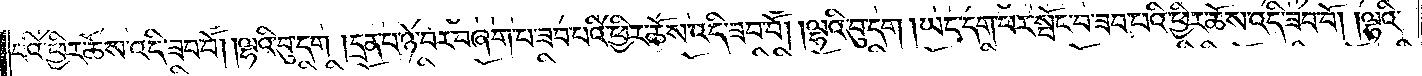པའི་ཕྱིར་ཆོས་འདི་ཟབ་བོ། །ལྷའི་བུ་དག །དྲན་པ་ཉེ་བར་བཞག་པ་ཟབ་པའི་ཕྱིར་ཆོས་འདི་ཟབ་བོ། །ལྷའི་བུ་དག །ཡང་དག་པར་སྤོང་བ་ཟབ་པའི་ཕྱིར་ཆོས་འདི་ཟབ་བོ། །ལྷའི་
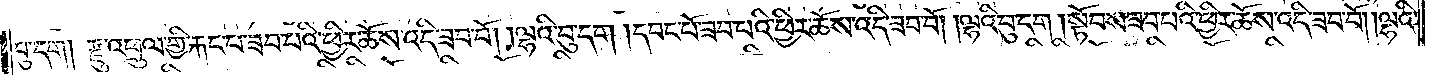བུ་དག །རྫུ་འཕྲུལ་གྱི་རྐང་པ་ཟབ་པའི་ཕྱིར་ཆོས་འདི་ཟབ་བོ། །ལྷའི་བུ་དག །དབང་པོ་ཟབ་པའི་ཕྱིར་ཆོས་འདི་ཟབ་བོ། །ལྷའི་བུ་དག །སྟོབས་ཟབ་པའི་ཕྱིར་ཆོས་འདི་ཟབ་བོ། །ལྷའི་
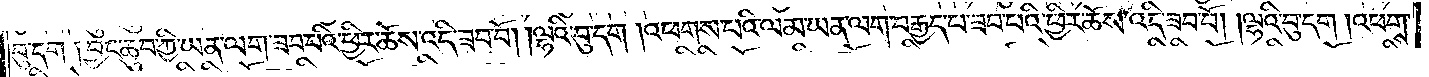བུ་དག །བྱང་ཆུབ་ཀྱི་ཡན་ལག་ཟབ་པའི་ཕྱིར་ཆོས་འདི་ཟབ་བོ། །ལྷའི་བུ་དག །འཕགས་པའི་ལམ་ཡན་ལག་བརྒྱད་པ་ཟབ་པའི་ཕྱིར་ཆོས་འདི་ཟབ་བོ། །ལྷའི་བུ་དག །འཕགས་
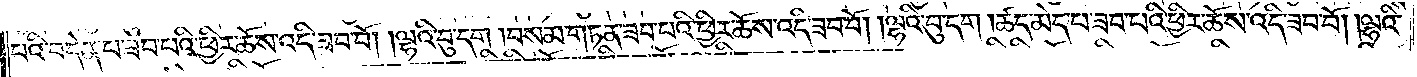པའི་བདེན་པ་ཟབ་པའི་ཕྱིར་ཆོས་འདི་ཟབ་བོ། །ལྷའི་བུ་དག །བསམ་གཏན་ཟབ་པའི་ཕྱིར་ཆོས་འདི་ཟབ་བོ། །ལྷའི་བུ་དག །ཚད་མེད་པ་ཟབ་པའི་ཕྱིར་ཆོས་འདི་ཟབ་བོ། །ལྷའི་
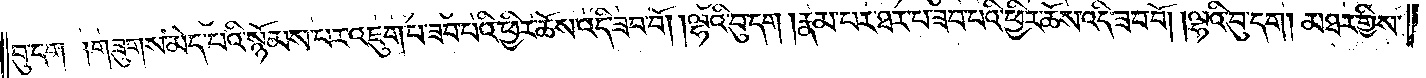བུ་དག །གཟུགས་མེད་པའི་སྙོམས་པར་འཇུག་པ་ཟབ་པའི་ཕྱིར་ཆོས་འདི་ཟབ་བོ། །ལྷའི་བུ་དག །རྣམ་པར་ཐར་པ་ཟབ་པའི་ཕྱིར་ཆོས་འདི་ཟབ་བོ། །ལྷའི་བུ་དག །མཐར་གྱིས་
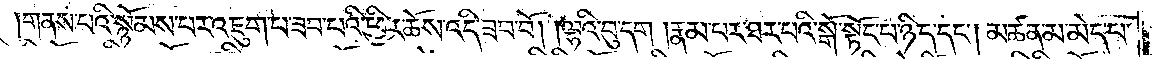གནས་པའི་སྙོམས་པར་འཇུག་པ་ཟབ་པའི་ཕྱིར་ཆོས་འདི་ཟབ་བོ། །ལྷའི་བུ་དག །རྣམ་པར་ཐར་པའི་སྒོ་སྟོང་པ་ཉིད་དང༌། མཚན་མ་མེད་པ་
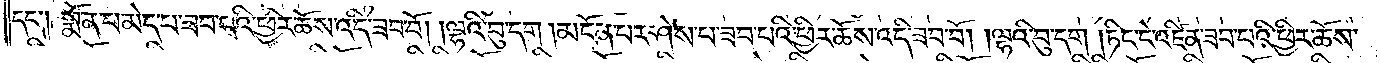དང༌། སྨོན་པ་མེད་པ་ཟབ་པའི་ཕྱིར་ཆོས་འདི་ཟབ་བོ། །ལྷའི་བུ་དག །མངོན་པར་ཤེས་པ་ཟབ་པའི་ཕྱིར་ཆོས་འདི་ཟབ་བོ། །ལྷའི་བུ་དག །ཏིང་ངེ་འཛིན་ཟབ་པའི་ཕྱིར་ཆོས་
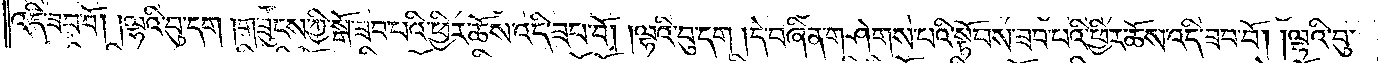འདི་ཟབ་བོ། །ལྷའི་བུ་དག །གཟུངས་ཀྱི་སྒོ་ཟབ་པའི་ཕྱིར་ཆོས་འདི་ཟབ་བོ། །ལྷའི་བུ་དག །དེ་བཞིན་གཤེགས་པའི་སྟོབས་ཟབ་པའི་ཕྱིར་ཆོས་འདི་ཟབ་བོ། །ལྷའི་བུ་
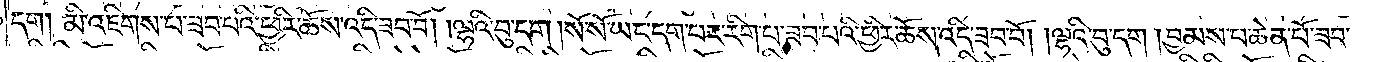དག །མི་འཇིགས་པ་ཟབ་པའི་ཕྱིར་ཆོས་འདི་ཟབ་བོ། །ལྷའི་བུ་དག །སོ་སོ་ཡང་དག་པར་རིག་པ་ཟབ་པའི་ཕྱིར་ཆོས་འདི་ཟབ་བོ། །ལྷའི་བུ་དག །བྱམས་པ་ཆེན་པོ་ཟབ་
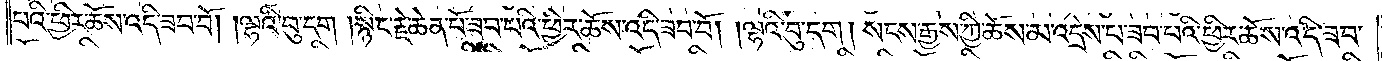པའི་ཕྱིར་ཆོས་འདི་ཟབ་བོ། །ལྷའི་བུ་དག །སྙིང་རྗེ་ཆེན་པོ་ཟབ་པའི་ཕྱིར་ཆོས་འདི་ཟབ་བོ། །ལྷའི་བུ་དག །སངས་རྒྱས་ཀྱི་ཆོས་མ་འདྲེས་པ་ཟབ་པའི་ཕྱིར་ཆོས་འདི་ཟབ་
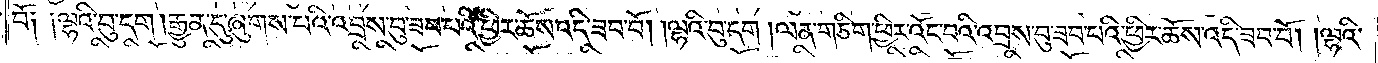བོ། །ལྷའི་བུ་དག །རྒྱུན་དུ་ཞུགས་པའི་འབྲས་བུ་ཟབ་པའི་ཕྱིར་ཆོས་འདི་ཟབ་བོ། །ལྷའི་བུ་དག །ལན་གཅིག་ཕྱིར་འོང་བའི་འབྲས་བུ་ཟབ་པའི་ཕྱིར་ཆོས་འདི་ཟབ་བོ། །ལྷའི་
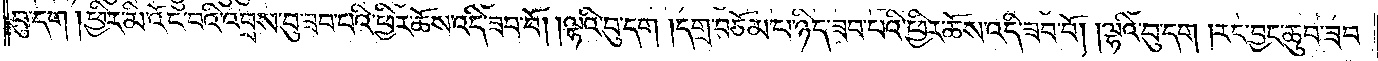བུ་དག །ཕྱིར་མི་འོང་བའི་འབྲས་བུ་ཟབ་པའི་ཕྱིར་ཆོས་འདི་ཟབ་བོ། །ལྷའི་བུ་དག །དགྲ་བཅོམ་པ་ཉིད་ཟབ་པའི་ཕྱིར་ཆོས་འདི་ཟབ་བོ། །ལྷའི་བུ་དག །རང་བྱང་ཆུབ་ཟབ་
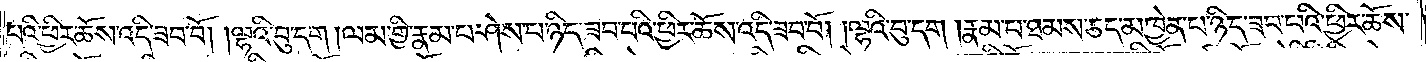པའི་ཕྱིར་ཆོས་འདི་ཟབ་བོ། །ལྷའི་བུ་དག །ལམ་གྱི་རྣམ་པ་ཤེས་པ་ཉིད་ཟབ་པའི་ཕྱིར་ཆོས་འདི་ཟབ་བོ། །ལྷའི་བུ་དག །རྣམ་པ་ཐམས་ཅད་མཁྱེན་པ་ཉིད་ཟབ་པའི་ཕྱིར་ཆོས་
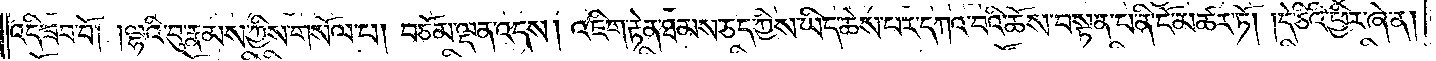འདི་ཟབ་བོ། །ལྷའི་བུ་རྣམས་ཀྱིས་གསོལ་པ། བཅོམ་ལྡན་འདས། འཇིག་རྟེན་ཐམས་ཅད་ཀྱིས་ཡིད་ཆེས་པར་དཀའ་བའི་ཆོས་བསྟན་པ་ནི་ངོ་མཚར་ཏོ། །དེ་ཅིའི་ཕྱིར་ཞེ་ན།
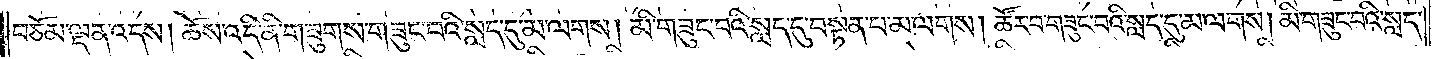བཅོམ་ལྡན་འདས། ཆོས་འདི་ནི་གཟུགས་གཟུང་པའི་སླད་དུ་མ་ལགས། མི་གཟུང་བའི་སླད་དུ་བསྟན་པ་མ་ལགས། ཚོར་བ་གཟུང་བའི་སླད་དུ་མ་ལགས། མི་གཟུང་བའི་སླད་
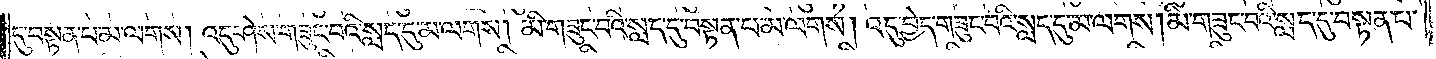དུ་བསྟན་པ་མ་ལགས། །འདུ་ཤེས་གཟུང་བའི་སླད་དུ་མ་ལགས། མི་གཟུང་བའི་སླད་དུ་བསྟན་པ་མ་ལགས། འདུ་བྱེད་གཟུང་བའི་སླད་དུ་མ་ལགས། མི་གཟུང་བའི་སླད་དུ་བསྟན་པ་
